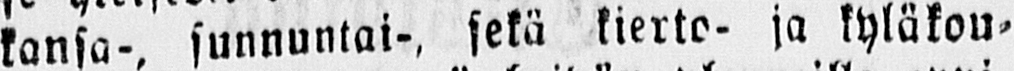kansa-, sunnuntai-, sekä kierto- ja kyläkou-
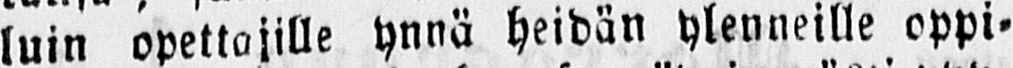luin opettajille ynnä heidän ylenneille oppi-
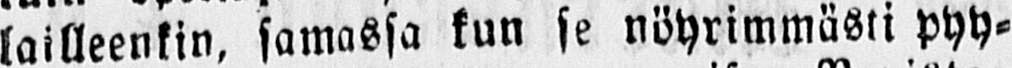lailleenkin, samassa kun se nöyrimmästi pyy-
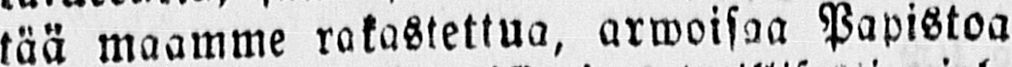tää maamme rakastettua, arwoisaa Papistoa
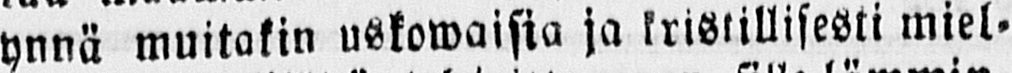ynnä muitakin uskowaisia ja kristillisesti miel-
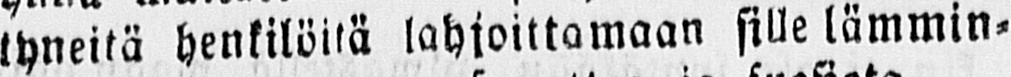tyneitä henkilöitä lahjoittamaan sille lämmin-
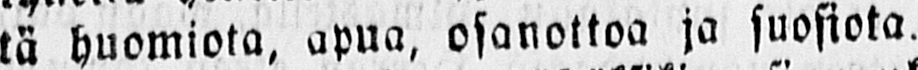tä huomiota, apua, osanottoa ja suosiota.
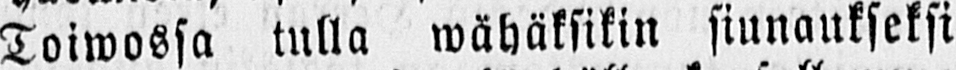Toiwossa tulla wähäksikin siunaukseksi
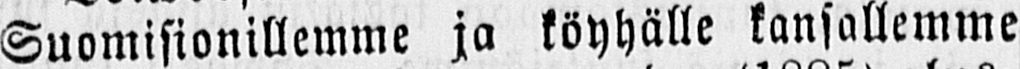Suomisionillemme ja köyhälle kansallemme
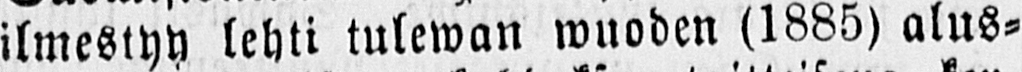ilmestyy lehti tulewan wuoden (1885) alus-
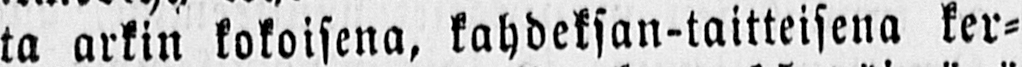ta arkin kokoisena, kahdeksan-taitteisena ker-
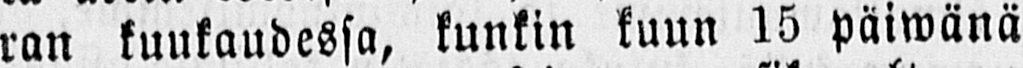ran kuukaudessa, kunkin kuun 15 päiwänä
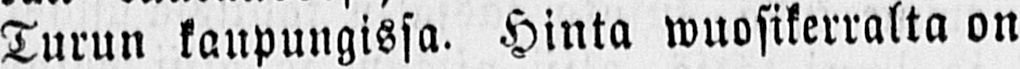Turun kaupungissa. Hinta wuosikerralta on
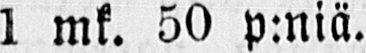1 mk. 50 p:niä.
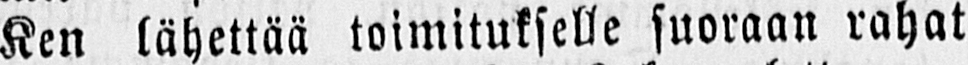Ken lähettää toimitukselle suoraan rahat
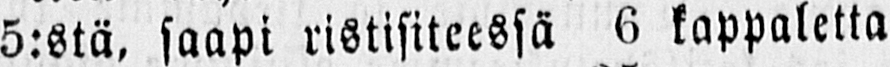5:stä, saapi ristisiteessä 6 kappaletta
